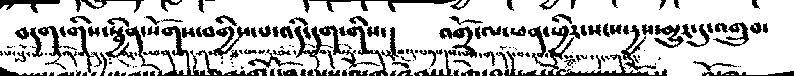བདག་གིས་སྦྱིས་སོགས་བགྱིས་པ་འདི་དག་གིས་།  འགྲོ་ལ་ཕན་ཕྱིར་སངས་དྱས་མྱུར་དུ་འགྲུབ་
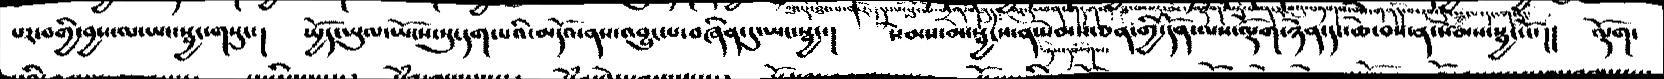པར་བགྱི་བྱས་ལ་ཡང་སྦྱང་གསུང་།  སྤྱོད་ཡུལ་ཡོངས་སུ་དག་པའི་མདོའ་ནས་འབྱུང་པ་བཞིན་དུ་ཡང་སྦྱང་།  སེམས་མ་སྦྱངས་སེམས་ཅན་གྱི་དོན་ལས་ལྡོག་ཉེན་ད་ཆེ་བས་ན་སེམས་སྦྱང་ངོ་།།  ལྡོག་
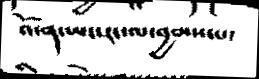འོ་ན་ཡ་སང་ལ་བྱམས་པ་
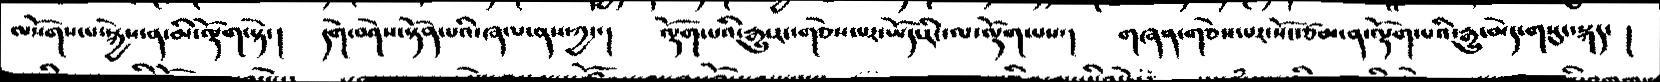ལསོགས་པ་སྐྱེས་ན་མི་ལྡོག་སྟེ་།    དགེ་བཤེས་སྟོན་པའི་ཞལ་ནས་ཀྱང་།    ལྡོག་པའི་རྒྱུ་རང་གཅེས་པར་ཡོད་རིང་ལ་ལྡོག་པས་།   གཞན་གཅེས་པར་སོང་ཙམ་ན་ལྡོག་པའི་རྒྱུ་མེད་གསུང་སྐད་  །
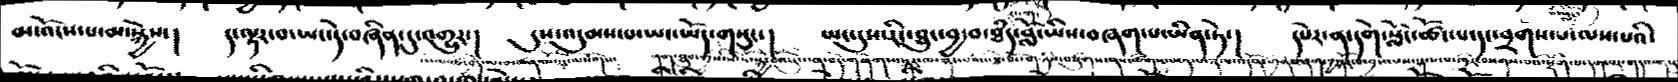མ་འོངས་པ་མ་སྐྱེས་།  ད་ལྟར་བ་ཡང་དེ་བཞིན་དུ་འགྱུར་།  དུས་འདུམས་པ་ཡང་ཡོད་གསུང་།  ཡང་དུས་རིང་ཐུང་བྱ་བ་ཐཾད་བློ་ཡིས་བཞག་པ་ཡིན་ཏེ་།  དཔེར་ན་དགེ་སློང་ཚོང་པ་དང་བྲགས་པ་ལས་པའི་
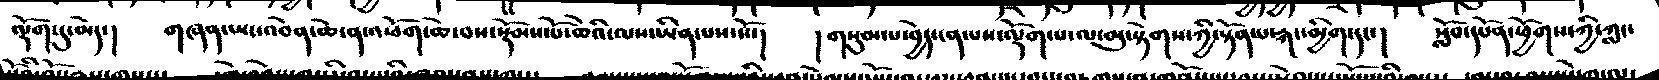ལྡོག་དུ་མེད་།  གཞན་ཡང་འབེན་ཆེ་ན་འཕོག་ཆེ་བས་སྡོམས་པོ་ཆེའི་ལས་ཡིན་པས་སོ་།  ། གསུམ་་པ་བྱེད་ན་པས་ལྡོག་པ་ལ་མུ་སྟེགས་ཀྱི་སྟོན་པ་རྐང་མྱིག་དང་།  སློབ་དཔོན་ཕྱོགས་ཀྱི་ཀླང་
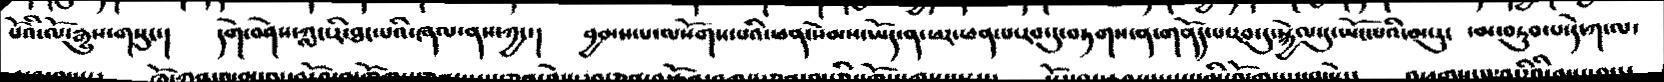པོའི་ལོ་རྒྱུས་གསུང་།  དགེ་བཤེས་ཀླང་རི་ཐང་པའི་ཞལ་ནས་ཀྱང་།  བྱམས་པ་ལསོགས་པའི་ཕན་སེམས་ཡོད་ན་ཕར་ཕན་པ་རབ་དུ་བཏགས་ན་གནོད་པ་རབ་དུ་སྐྱེལ་དུ་ཡོང་པའི་མ་རུང  ་མ་བཏུབ་པ་དེ་ཀ་ལ་
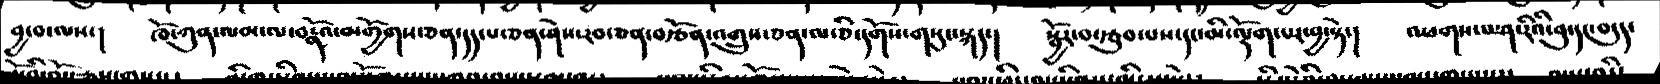བྱ་བ་ལས་།   ཁོ་ཀུན་ལམ་ལ་བརྣོའ་མགྱོགས་ཅན་དད་པ་ཅན་ཤེས་རབ་ཅན་བརྩོན་འགྲུས་ཅན་ལ་ཅི་དགོས་གསུང་སྐད་།   སྦྱོར་བ་རྩུབ་པས་དང་མི་ལྡོག་པར་བྱ་སྟེ་།   འཕགས་པ་ཤ་རིའི་བུ་དང་བདུད་
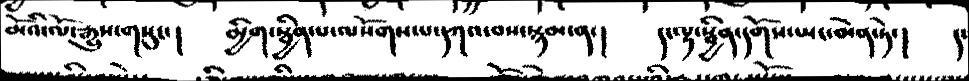མོའི་ལོ་རྒྱུས་གསུང་།   མྱིག་སྦྱིན་པ་ལསོགས་པ་དཀའ་བས་སྙམ་ན་།   ད་ལྟ་སྦྱིན་དགོས་ཡང་མེད་ཏེ་།   ད་
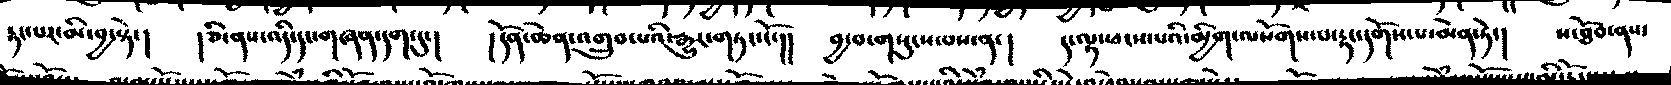རྟང་པར་མི་བྱ་སྟེ་།    །ཅི་ནས་འདི་དང་གཞན་དག་དུ་།    །དོན་ཆེན་འགྲུབ་པའི་རྒྱུར་གཏང་ངོ་།།  བྱ་བ་གསུངས་པས་ན་།  ད་ལྟ་ཕངས་པའི་མྱིག་ལསོགས་པ་རྟ་དགོས་པ་མེན་ཏེ་།   ས་ཐོབ་ནས་
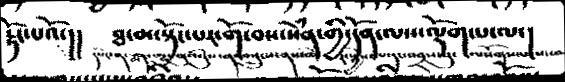རྟོང་པའོ་།།    ཐ་མ་སྟོང་པར་གོ་བས་སེཾན་གྱི་དོན་ལས་ལྡོག་པ་ལ་།
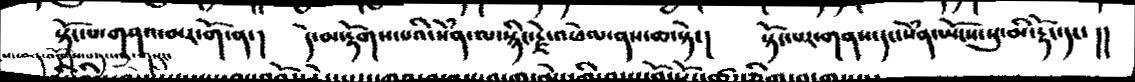སྟོང་པ་གཤའ་མར་གོ་ན་།   དེ་མ་རྟོགས་པའི་སེཾན་ལ་སྙིད་རྗེ་འཕེལ་ནས་ཆ་སྟེ་།    སྟོང་པར་གནས་དང་སེཾན་ཡོངས་སུམི་རྟོང་དང་།།
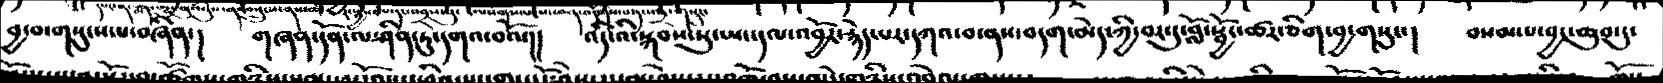བྱ་བ་གསུངས་པ་བཞིན་།   གཞན་དོན་ལ་ཤིན་ཏུ་དགའ་བའོ།།    འདིའི་སྐབས་སུ་ཡང་དལ་འབྱོར་རྙེད་པར་དཀའ་བ་ནས་བདག་མེད་ཀྱི་བར་དུ་བློ་སྦྱོང་ཚར་ཅིག་བྱ་གསུང་།   བསམ་པ་བྱང་ཆུབ་དུ་
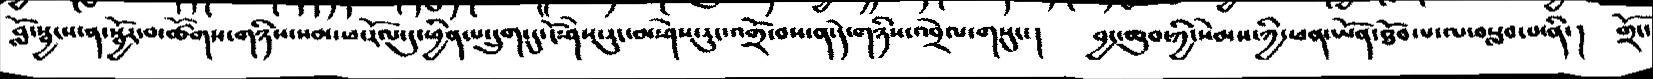བློ་སྦྱངས་ན་སྦྱོར་བ་ཚོགས་གཉིས་སམ་ཕ་རོལ་དུ་ཕྱིན་པ་དྲུག་དུ་ངོ་ཤེས་རུང་མ་ཤེས་རུང་འགྲོ་བས་ན་དེ་གཉིས་འབྲེལ་གསུང་།   བྱང་ཆུབ་ཀྱི་སེམས་ཀྱི་ཕན་ཡོན་ཐོབ་པ་ལ་བསླབ་པ་ནི་།   གྲོང་
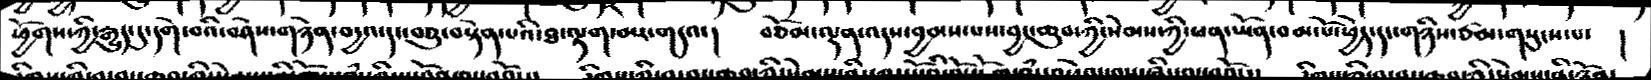ཕྱོགས་ཀྱི་རྒྱུད་དུ་དགེ་བའི་བཤེས་གཉེན་བདྱའ་དང་བཅུ་བསྟེན་པའི་ཐ་ལྟག་མར་གདའ་།  བཅོམ་ལྡན་འདས་པས་བྱང་ཆུབ་སེམས་ཀྱི་ཕན་ཡོན་བམ་པོ་ཕྱེད་དང་གཉིས་ཙམ་གསུངས་པ་  །
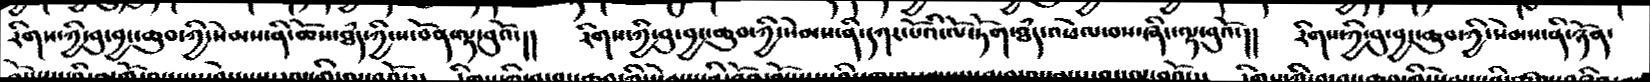རིགས་ཀྱི་བྱང་ཆུབ་ཀྱི་སེམས་ནི་ཆོས་ཐཾད་ཀྱི་ས་བོན་ལྟ་བུའོ་།།   རིགས་ཀྱི་བུ་བྱང་ཆུབ་ཀྱི་སེམས་ནི་དཀར་པོའི་ལོ་ཏོག་ཐཾད་འཕེལ་བས་ཞིང་ལྟ་བུའོ་།།   རིགས་ཀྱི་བུ་བྱང་ཆུབ་ཀྱི་སེམས་ནི་ཉོན་
